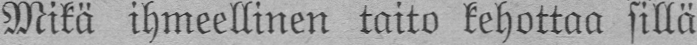Mikä ihmeellinen taito kehottaa sillä
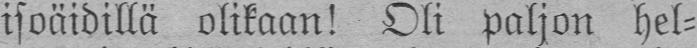isoäidillä olikaan! Oli paljon hel-
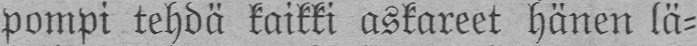pompi tehdä kaikki askareet hänen lä-
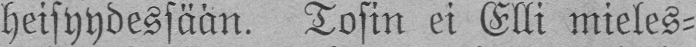heisyydessään. Tosin ei Elli mieles-
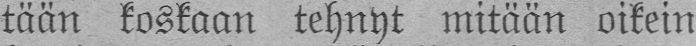tään koskaan tehnyt mitään oikein
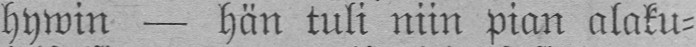hywin — hän tuli niin pian alaku-
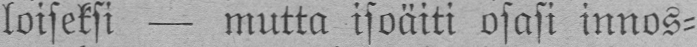loiseksi — mutta isoäiti osasi innos-
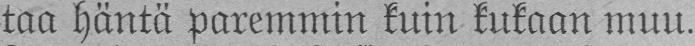taa häntä paremmin kuin kukaan muu.
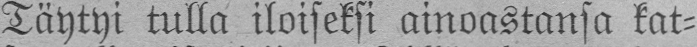Täytyi tulla iloiseksi ainoastansa kat-
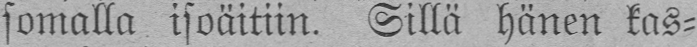somalla isoäitiin. Sillä hänen kas-
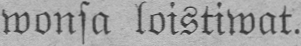wonsa loistiwat.
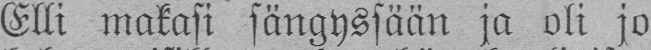Elli makasi sängyssään ja oli jo
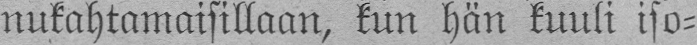nukahtamaisillaan, kun hän kuuli iso-
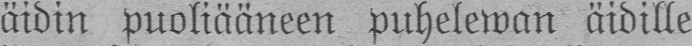äidin puoliääneen puhelewan äidille
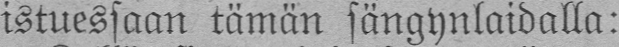istuessaan tämän sängynlaidalla:
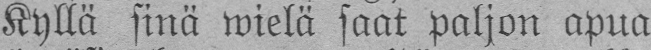Kyllä sinä wielä saat paljon apua
